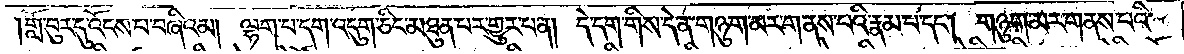གློ་བུར་དུ་འོངས་པ་བཞིའམ། ལྷག་པ་དག་འདུག་ཅིང་མཐུན་པར་གྱུར་པ་ན། དེ་དག་གིས་དེ་ན་གཉུག་མར་གནས་པའི་རྣམ་པ་དང༌། གཉུག་མར་གནས་པའི་
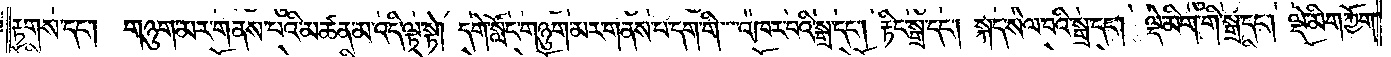རྟགས་དང༌། གཉུག་མར་གནས་པའི་མཚན་མ་འདི་ལྟ་སྟེ། དགེ་སློང་གཉུག་མར་གནས་པ་དག་གི་འཁར་བའི་སྒྲ་དང༌། རྟིང་སྒྲ་དང༌། སྐད་སེལ་བའི་སྒྲ་དང༌། ལྡེ་མིག་གི་སྒྲ་དང༌། ལྡེ་མིག་ཀྱོག་
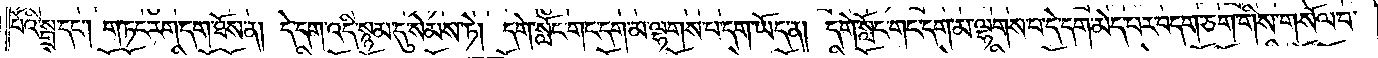པོའི་སྒྲ་དང༌། གཏང་རག་དག་ཐོས་ན། དེ་དག་འདི་སྙམ་དུ་སེམས་ཏེ། དགེ་སློང་གང་དག་མ་ལྷགས་པ་དག་ཡོད་ན། དགེ་སློང་གང་དག་མ་ལྷགས་པ་དེ་དག་མེད་པར་བདག་ཅག་གིས་གསོལ་བ་
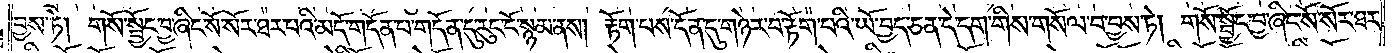བྱས་ཏེ། གསོ་སྦྱོང་བྱ་ཞིང་སོ་སོར་ཐར་པའི་མདོ་གདོན་པ་གདོན་དུ་རུང་ངོ་སྙམ་ནས། རྟོག་པས་དོན་དུ་གཉེར་བ་རྟོག་པའི་ཡོ་བྱད་ཅན་དེ་དག་གིས་གསོལ་བ་བྱས་ཏེ། གསོ་སྦྱོང་བྱ་ཞིང་སོ་སོར་ཐར་
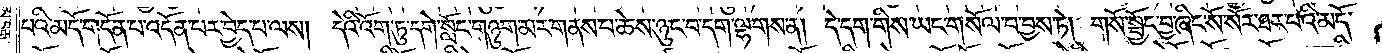པའི་མདོ་གདོན་པ་འདོན་པར་བྱེད་པ་ལས། དེའི་འོག་ཏུ་དགེ་སློང་གཉུག་མར་གནས་པ་ཆེས་ཉུང་བ་དག་ལྷགས་ན། དེ་དག་གིས་ཡང་གསོལ་བ་བྱས་ཏེ། གསོ་སྦྱོང་བྱ་ཞིང་སོ་སོར་ཐར་པའི་མདོ་
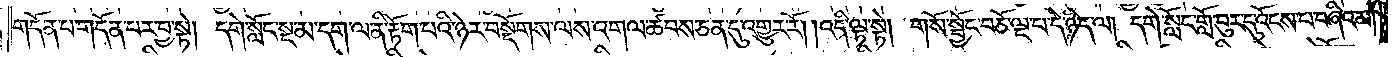གདོན་པ་གདོན་པར་བྱ་སྟེ། དགེ་སློང་སྔ་མ་དག་ལ་ནི་རྟོག་པའི་ཉེར་བསྡོགས་ལས་འགལ་ཚབས་ཅན་དུ་འགྱུར་རོ། །འདི་ལྟ་སྟེ། གསོ་སྦྱོང་བཅོ་ལྔ་པ་དེ་ཉིད་ལ། དགེ་སློང་གློ་བུར་དུ་འོངས་པ་བཞིའམ།
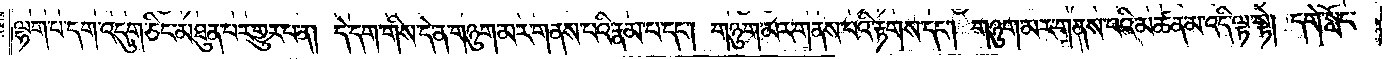ལྷག་པ་དག་འདུག་ཅིང་མཐུན་པར་གྱུར་པ་ན། དེ་དག་གིས་དེ་ན་གཉུག་མར་གནས་པའི་རྣམ་པ་དང༌། གཉུག་མར་གནས་པའི་རྟགས་དང༌། གཉུག་མར་གནས་པའི་མཚན་མ་འདི་ལྟ་སྟེ། དགེ་སློང་
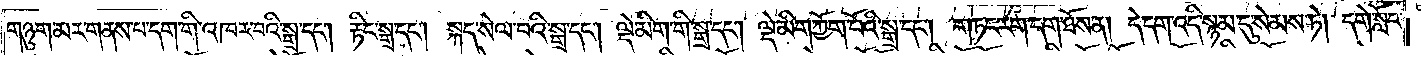གཉུག་མར་གནས་པ་དག་གི་འཁར་བའི་སྒྲ་དང༌། རྟིང་སྒྲ་དང༌། སྐད་སེལ་བའི་སྒྲ་དང༌། ལྡེ་མིག་གི་སྒྲ་དང༌། ལྡེ་མིག་ཀྱོག་པོའི་སྒྲ་དང༌། གཏང་རག་དག་ཐོས་ན། དེ་དག་འདི་སྙམ་དུ་སེམས་ཏེ། དགེ་སློང་
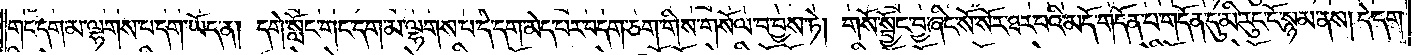གང་དག་མ་ལྷགས་པ་དག་ཡོད་ན། དགེ་སློང་གང་དག་མ་ལྷགས་པ་དེ་དག་མེད་པར་བདག་ཅག་གིས་གསོལ་བ་བྱས་ཏེ། གསོ་སྦྱོང་བྱ་ཞིང་སོ་སོར་ཐར་པའི་མདོ་གདོན་པ་གདོན་དུ་མི་རུང་ངོ་སྙམ་ནས། དེ་དག་
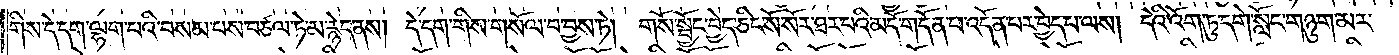གིས་དེ་དག་ལྷག་པའི་བསམ་པས་བཙལ་ཏེ་མ་རྙེད་ནས། དེ་དག་གིས་གསོལ་བ་བྱས་ཏེ། གསོ་སྦྱོང་བྱེད་ཅིང་སོ་སོར་ཐར་པའི་མདོ་གདོན་པ་འདོན་པར་བྱེད་པ་ལས། དེའི་འོག་ཏུ་དགེ་སློང་གཉུག་མར་
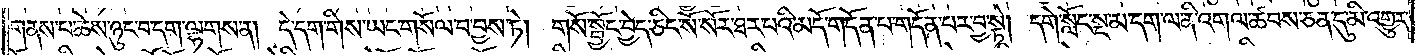གནས་པ་ཆེས་ཉུང་བ་དག་ལྷགས་ན། དེ་དག་གིས་ཡང་གསོལ་བ་བྱས་ཏེ། གསོ་སྦྱོང་བྱེད་ཅིང་སོ་སོར་ཐར་པའི་མདོ་གདོན་པ་གདོན་པར་བྱ་སྟེ། དགེ་སློང་སྔ་མ་དག་ལ་ནི་འགལ་ཚབས་ཅན་དུ་མི་འགྱུར་
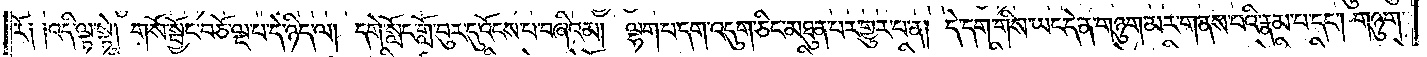རོ༏ ༏ འདི་ལྟ་སྟེ། གསོ་སྦྱོང་བཅོ་ལྔ་པ་དེ་ཉིད་ལ། དགེ་སློང་གློ་བུར་དུ་འོངས་པ་བཞིའམ། ལྷག་པ་དག་འདུག་ཅིང་མཐུན་པར་གྱུར་པ་ན། དེ་དག་གིས་ཡང་དེ་ན་གཉུག་མར་གནས་པའི་རྣམ་པ་དང༌། གཉུག་
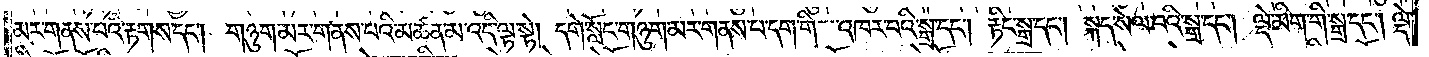མར་གནས་པའི་རྟགས་དང༌། གཉུག་མར་གནས་པའི་མཚན་མ་འདི་ལྟ་སྟེ། དགེ་སློང་གཉུག་མར་གནས་པ་དག་གི་འཁར་བའི་སྒྲ་དང༌། རྟིང་སྒྲ་དང༌། སྐད་སེལ་བའི་སྒྲ་དང༌། ལྡེ་མིག་གི་སྒྲ་དང༌། ལྡེ་
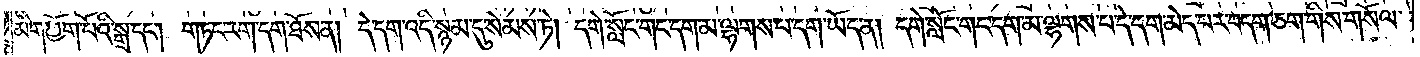མིག་ཀྱོག་པོའི་སྒྲ་དང༌། གཏང་རག་དག་ཐོས་ན། དེ་དག་འདི་སྙམ་དུ་སེམས་ཏེ། དགེ་སློང་གང་དག་མ་ལྷགས་པ་དག་ཡོད་ན། དགེ་སློང་གང་དག་མ་ལྷགས་པ་དེ་དག་མེད་པར་བདག་ཅག་གིས་གསོལ་
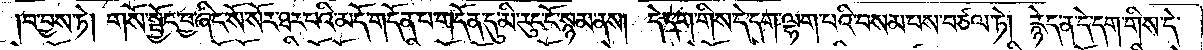བ་བྱས་ཏེ། གསོ་སྦྱོང་བྱ་ཞིང་སོ་སོར་ཐར་པའི་མདོ་གདོན་པ་གདོན་དུ་མི་རུང་ངོ་སྙམ་ནས། དེ་དག་གིས་དེ་དག་ལྷག་པའི་བསམ་པས་བཙལ་ཏེ། རྙེད་ན་དེ་དག་གིས་དེ་
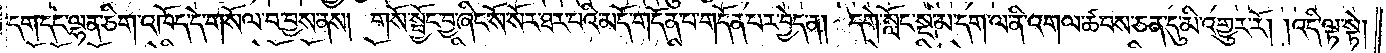དག་དང་ལྷན་ཅིག་འཁོད་དེ་གསོལ་བ་བྱས་ནས། གསོ་སྦྱོང་བྱ་ཞིང་སོ་སོར་ཐར་པའི་མདོ་གདོན་པ་གདོན་པར་བྱེད་ན། དགེ་སློང་སྔ་མ་དག་ལ་ནི་འགལ་ཚབས་ཅན་དུ་མི་འགྱུར་རོ། །འདི་ལྟ་སྟེ།
